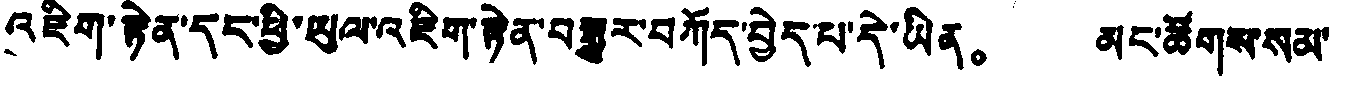འཇིག་རྟེན་དང་ཕྱི་ཡུལ་འཇིག་རྟེན་བསྒྱུར་བཀོད་བྱེད་པ་དེ་ཡིན。 མང་ཚོགས་སམ་
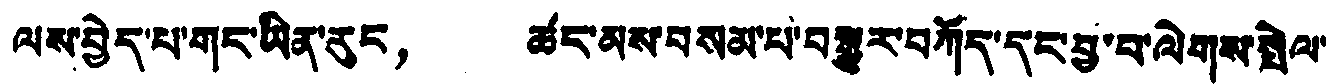ལས་བྱེད་པ་གང་ཡིན་རུང， ཚང་མས་བསམ་པ་བསྒྱུར་བཀོད་དང་བྱ་བ་ལེགས་སྤེལ་
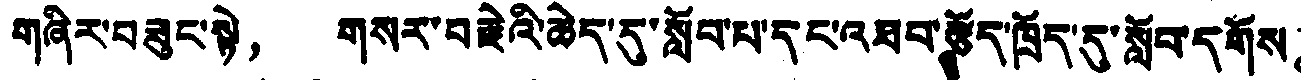གཞིར་བཟུང་སྟེ， གསར་བརྗེའི་ཆེད་དུ་སློབ་པ་དང་འཐབ་རྩོད་ཁྲོད་དུ་སློབ་དགོས。
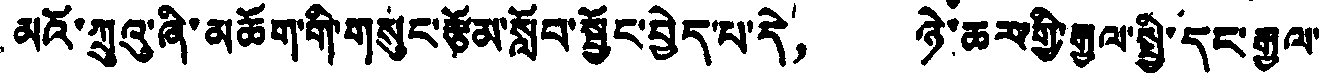མའོ་ཀྲུའུ་ཞི་མཆོག་གི་གསུང་རྩོམ་སློབ་སྦྱོང་བྱེད་པ་དེ， ཉེ་ཆར་གྱི་རྒྱལ་སྤྱི་དང་རྒྱལ་
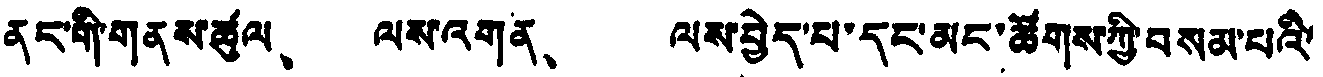ནང་གི་གནས་ཚུལ、 ལས་འགན、 ལས་བྱེད་པ་དང་མང་ཚོགས་ཀྱི་བསམ་པའི་
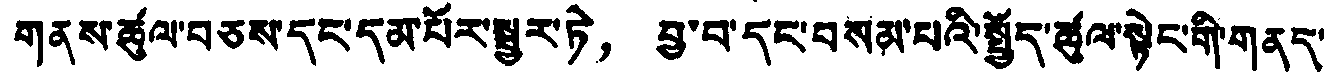གནས་ཚུལ་བཅས་དང་དམ་པོར་སྦྱར་ཏེ， བྱ་བ་དང་བསམ་པའི་སྤྱོད་ཚུལ་སྟེང་གི་གནད་
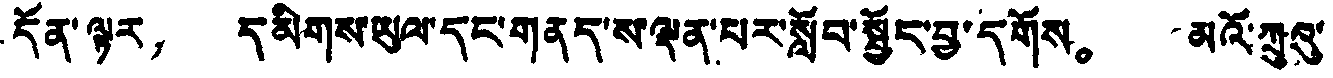དོན་ལྟར， དམིགས་ཡུལ་དང་གནད་ས་ལྡན་པར་སློབ་སྦྱོང་བྱ་དགོས。 མའོ་ཀྲུའུ་
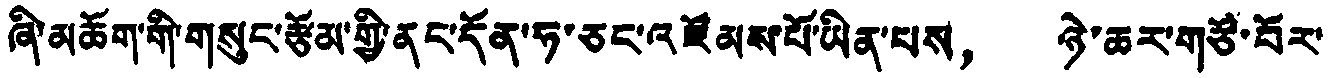ཞི་མཆོག་གི་གསུང་རྩོམ་གྱི་ནང་དོན་ཧ་ཅང་འཛོམས་པོ་ཡིན་པས， ཉེ་ཆར་གཙོ་བོར་
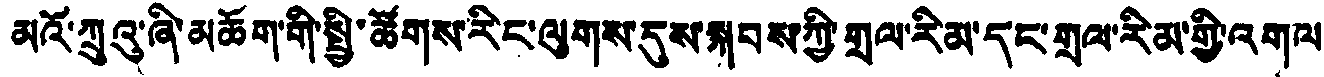མའོ་ཀྲུའུ་ཞི་མཆོག་གི་སྤྱི་ཚོགས་རིང་ལུགས་དུས་སྐབས་ཀྱི་གྲལ་རིམ་དང་གྲལ་རིམ་གྱི་འགུལ
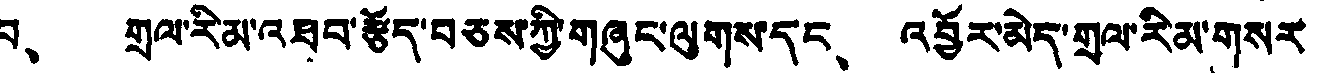བ、 གྲལ་རིམ་འཐབ་རྩོད་བཅས་ཀྱི་གཞུང་ལུགས་དང、 འབྱོར་མེད་གྲལ་རིམ་གསར
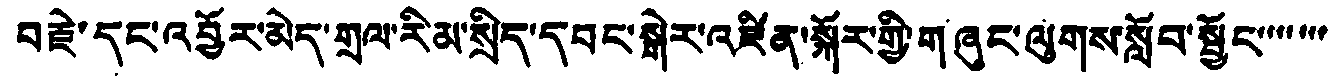བརྗེ་དང་འབྱོར་མེད་གྲལ་རིམ་སྲིད་དབང་སྒེར་འཛིན་སྐོར་གྱི་གཞུང་ལུགས་སློབ་སྦྱོང་་་་་་་
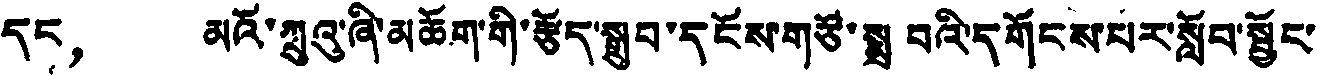དང， མའོ་ཀྲུའུ་ཞི་མཆོག་གི་རྩོད་སྒྲུབ་དངོས་གཙོ་སྨྲ བའི་དགོངས་པར་སློབ་སྦྱོང་
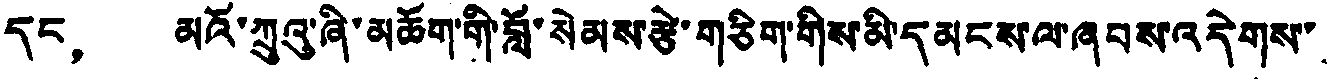དང， མའོ་ཀྲུའུ་ཞི་མཆོག་གི་བློ་སེམས་རྩེ་གཅིག་གིས་མི་དམངས་ལ་ཞབས་འདེགས་
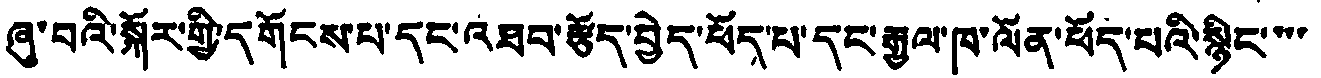ཞུ་བའི་སྐོར་གྱི་དགོངས་པ་དང་འཐབ་རྩོད་བྱེད་ཕོད་པ་དང་རྒྱལ་ཁ་ལོན་ཕོད་པའི་སྙིང་་་་
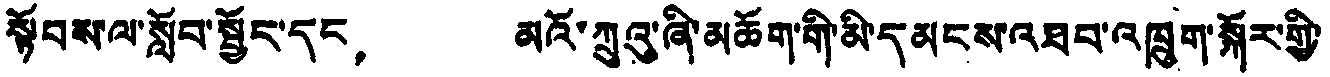སྟོབས་ལ་སློབ་སྦྱོང་དང， མའོ་ཀྲུའུ་ཞི་མཆོག་གི་མི་དམངས་འཐབ་འཁྲུག་སྐོར་གྱི་
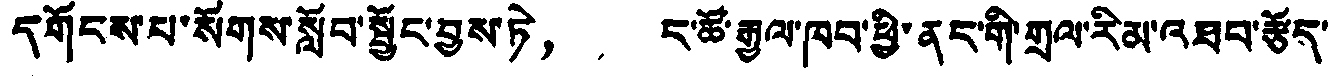དགོངས་པ་སོགས་སློབ་སྦྱོང་བྱས་ཏེ， ང་ཚོ་རྒྱལ་ཁབ་ཕྱི་ནང་གི་གྲལ་རིམ་འཐབ་རྩོད་
